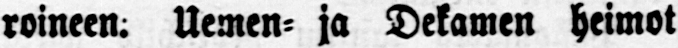roineen: Uemen- ja Dekamen heimot
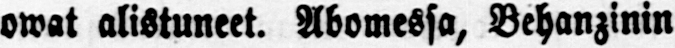owat alistuneet. Abomessa, Behanzinin
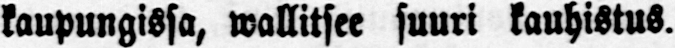kaupungissa, wallitsee suuri kauhistus.
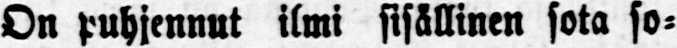On puhjennut ilmi sisällinen sota so-
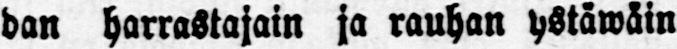dan harrastajain ja rauhan ystäwäin
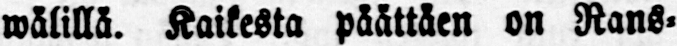wälillä. Kaikesta päättäen on Rans-
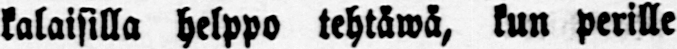kalaisilla helppo tehtäwä, kun perille
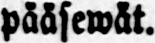pääsewät.
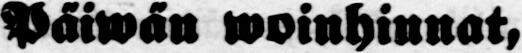Päiwän woinhinnat,
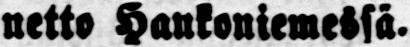netto Hankoniemessä.
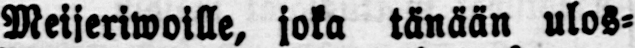Meijeriwoille, joka tänään ulos-
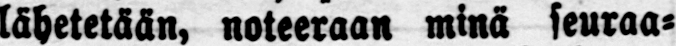lähetetään, noteeraan minä seuraa-
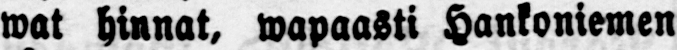wat hinnat, wapaasti Hankoniemen
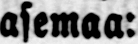asemaa:
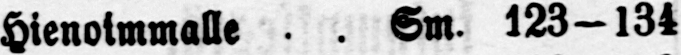Hienoimmalle Sm. 123-134
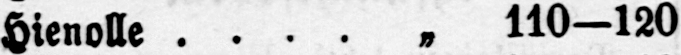Hienolle „ 110-120
